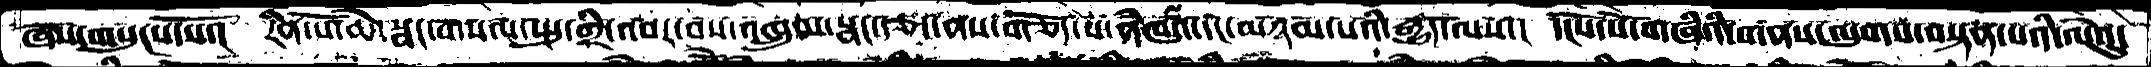ཞེས་གསུངས་སོ་།  རིན་པོ་ཆེ་སྣང་གསལ་སྤུ་གྲི་འབར་བས་འཁྲུལ་སྣང་རྩད་ནས་གཅོད་པ་ནཾཁའ་དང་མཉམ་པའི་རྒྱུད་ལས་།  དངོས་པོ་གཞིའི་གནས་ལུགས་བསྟན་པའི་ལེའུ་
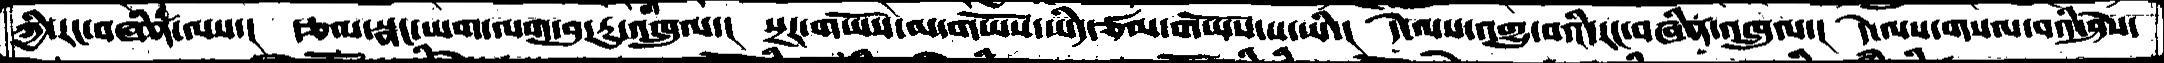ཀྱི་རང་བཞིན་ལས་།  རྩལ་སྣང་ཡག་ལག་བུ་རུ་འཁྲུལ་།  སྔར་གཡོས་མ་གཡོས་ཡིད་ཙམ་གཡོས་པ་ཡི་།  དེ་ལས་འགྱུ་བའི་རང་བཞིན་འཁྲུལ་།  དེ་ལས་གསལ་བའི་ཤེས་
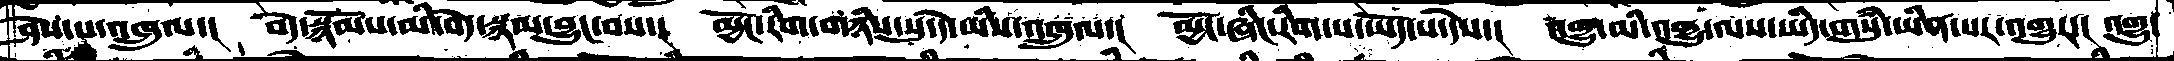ཤེས་པ་འཁྲུལ་།  བདེ་སྙོམས་མི་བདེ་སྙམ་བྱུང་བས་།  མྱོང་རིག་གཉིས་སུ་དེ་ཡིས་འཁྲུལ་།  མྱོང་ཞིང་རིགས་པ་ཡོད་པ་དེས་།  འགྱུ་མི་འགྱུ་ལས་ཡིད་གསུཾ་ཡིན་པར་འགྱུར་།  འགྱུ་
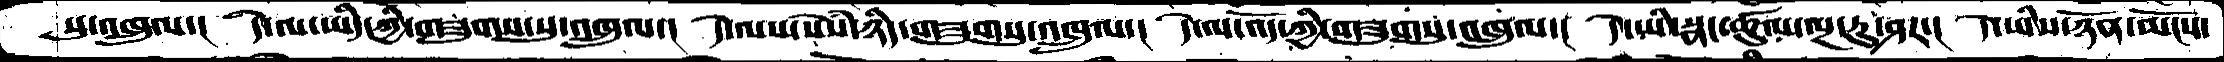སུ་འཁྲུལ་།  དེ་ལ་ཡིད་ཀྱི་གཟུགས་སུ་འཁྲུལ་།  དེ་ལས་སེསཾ་ཉིད་གཟུགསུ་འཁྲུལ་།  དེ་ལ་འོད་ཀྱི་གཟུགསུ་འཁྲུལ་།  དེ་ཡི་སྣང་ཚུལ་ལྔ་རུ་ཤར་།  དེ་ཡིས་ཉོན་མོངས་
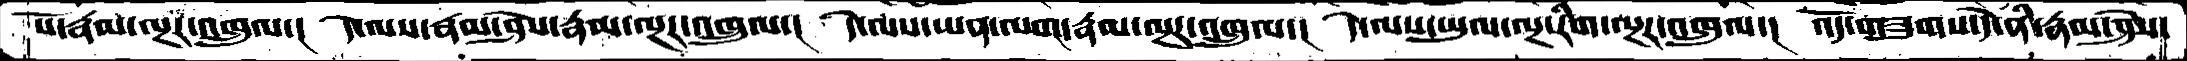པོ་རྣམ་ལྔར་འཁྲུལ་།  དེ་ལས་རྣམ་ཤེས་རྣམ་ལྔར་འཁྲུལ་།  དེ་ལས་ཡན་ལག་རྣམ་ལྔར་འཁྲུལ་།  དེ་ལས་ཡུལ་ལྔ་རིག་ལྔར་འཁྲུལ་།  འོད་གཟུགས་དེ་ནི་རྣམ་ཤེས་
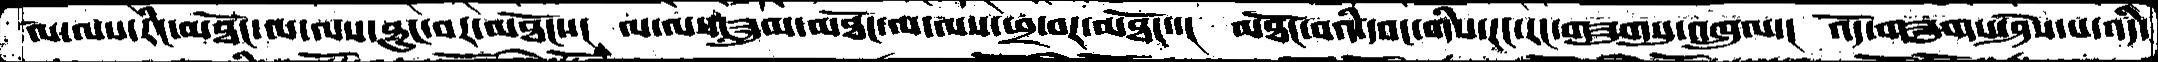ལ་ལས་རིང་མཐོང་ལ་ལས་ཐུང་བར་མཐོང་་།   ལ་ལས་གཟུགས་མཐོང་ལ་ལས་ཕྲ་བར་མཐོང་་།  མཐོང་བའི་དབང་གིས་རང་རང་གཟུགསུ་འཁྲུལ་།  འོད་གཟུགས་ཤེས་པ་འདི་
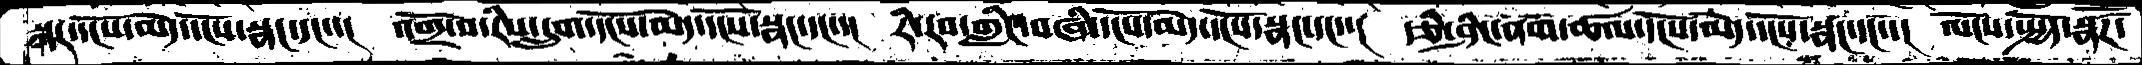སྐར་དངོས་མེད་དངོས་སྣང་དང་་།  འགྲོ་བ་རིས་དྲུག་དངོས་མེད་དངོས་སྣང་དང་་།  རི་རབ་གླིང་བཞི་དངོས་མེད་དངོས་སྣང་དང་་།  རྩི་ཤིང་ནག་ཚལ་དངོས་མེད་དངོས་སྣང་དང་་།  ལོངས་སྤྱོད་སྣཚོཌ་
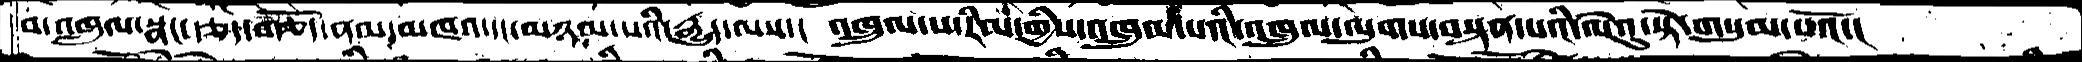བ་འཁྲུལ་སྣང་རྩད་གཅོད་ནམ་མཁའ་དང་མཉམ་པའི་རྒྱུད་ལས་།  འཁྲུལ་པ་རིམ་གྱིས་འཁྲུལ་པའི་འཁྲུལ་ལུགས་བསྟན་པའི་ལེའུ་སྟེ་གསུམ་པའོ་།
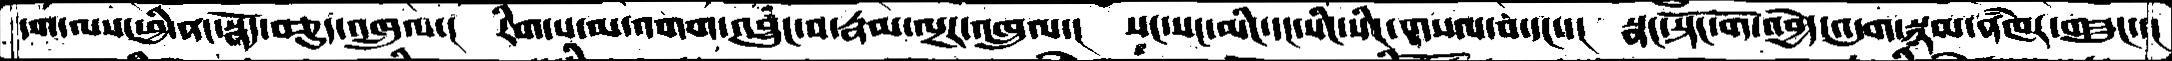དག་ལས་ཕྱི་ནང་སྣོད་བཅུད་འཁྲུལ་།  རིག་པ་མ་འགག་འབྱུང་བ་རྣམ་ལྔར་འཁྲུལ་།  སང་སང་མིང་དང་སིང་སིང་གསལ་བ་དང་་།  སྣང་སྟོང་གོ་འབྱེད་འདུག་སྙམ་ནཾཁར་གཟུང་།
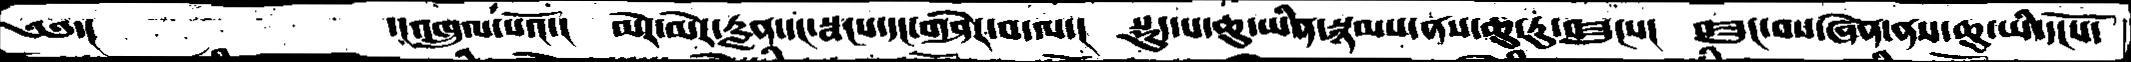༄༅་།         ་།འཁྲུལ་པའོ་།  མེར་མེར་རླན་དང་སྦངས་དང་གཤེར་བ་ལ་།  སྡུད་པ་ཆུ་ཡིན་སྙམས་ནས་ཆུ་རུ་གཟུངས།  བཟུང་བས་ཞེན་ནས་ཆུ་ཡི་དངོས་
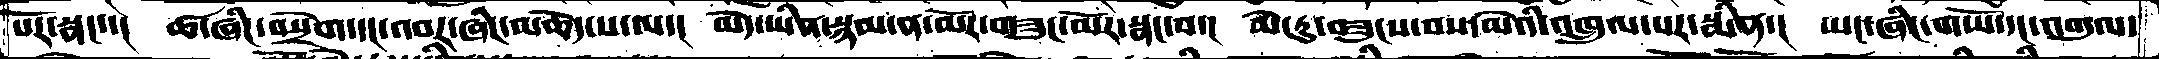པོར་སྣང་་།  ཚ་ཞིང་བསྲེགས་དང་འབར་ཞིང་མཆོད་པ་ལ་།  མེད་ཡིན་སྙམ་ན་མོར་གཟུང་མོར་སྣང་བ་།  མེ་རུ་བཟུངས་བས་མེའི་འཁྲུལ་པར་སྨིན་།  ཡང་ཞིང་གཡོ་དང་འགུལ་
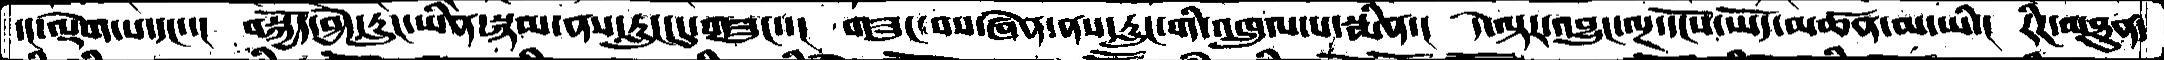དང་ལྡོག་པ་དང་་།  བསྐྱོད་བྱེད་རུང་ཡིན་སྙམ་ནས་རླུང་དུ་གཟུང་་།  གཟུང་བས་ཞེན་ནས་རླུང་གི་འཁྲུལ་པ་སྨིན་།  དེ་ལྟར་འབྱུང་ལྔ་དངོས་ཡོད་མཚན་མ་ཡི་།  རིཌ་མཐུན་
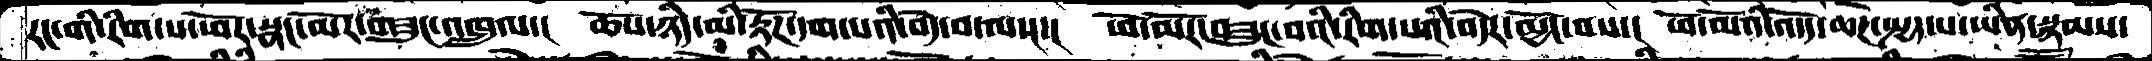རང་གི་རིག་པ་ཕོར་སྣང་མོར་གཟུང་འཁྲུལ་།  ཆོས་ཉིད་མི་རྟོཌ་དག་པའི་བདེ་བ་ལས་།  ཕོ་མོར་བཟུང་བའི་རིག་པའི་བདེར་མྱོང་བས་།  ཕོ་མོའི་འོདད་ཆཌ་སྤྱད་པ་ཡིན་སྙམས་
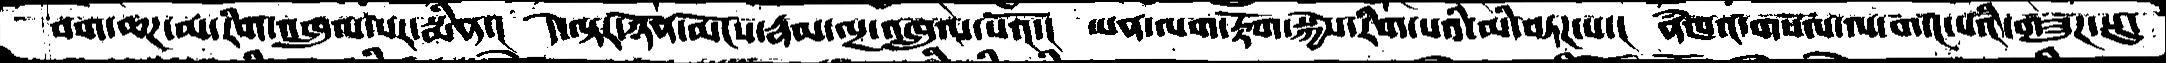བག་ཆཌ་མ་རིག་འཁྲུལ་པར་སྨིན་།  དེ་ལྟར་ཉོན་མོངས་རྣམ་ལྔ་འཁྲུལ་པའོ་།  ཡན་ལག་རྟོག་སྐྱེས་རིག་པའི་མི་བཏཌ་པ་།  ནཾཁའ་གསལ་ལ་གདང་པའི་གཟུཌ་སུ
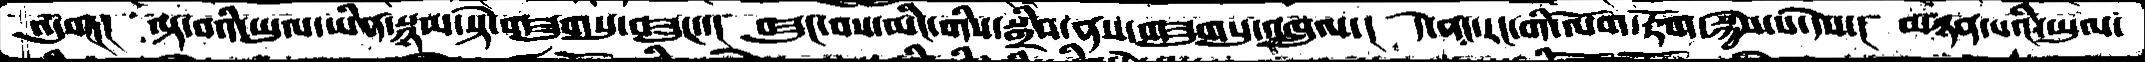འདུག།  ལྟ་བའི་ཡུལ་ཡིན་སྙམ་སྟེ་གཟུགསུ་བཟུང་་།  བཟུང་བས་མིང་གིས་སྒྲིབ་ནས་གཟུགསུ་འཁྲུལ་།  དེ་ནང་རང་གི་ལོག་རྟོག་སྐྱེས་པ་དེས་།  མཉན་པའི་ཡུལ་
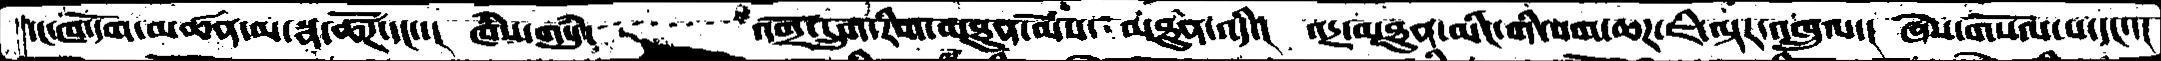དང་ཁ་དོག་མཚན་མ་སྣ་ཚོཌ་དང་་།  ཁཾས་གསུཾ་   འགྲོ་དྲུག་རིག་མཐུན་མོས་མཐུན་འདི་།  འདྲ་མཐུན་མིང་གི་བག་ཆཌ་ཇི་ལྟར་འཁྲུལ་།  ཞེས་གསོལ་པ་དང་་།
